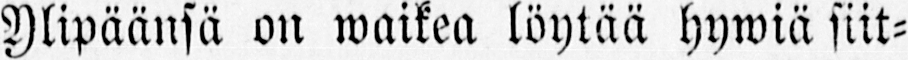Ylipäänsä on waikea löytää hywiä siit-
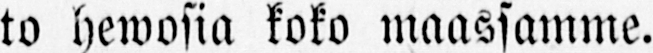to hewosia koko maassamme.
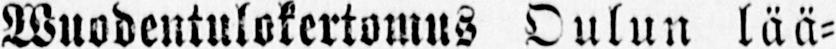Wuodentulokertomus Oulun lää-
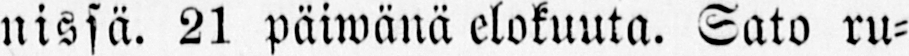nissä. 21 päiwänä elokuuta. Sato ru-
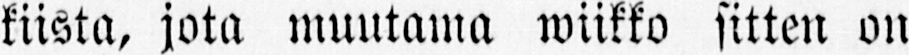kiista, jota muutama wiikko sitten on
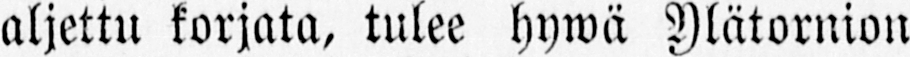aljettu korjata, tulee hywä Ylätornion
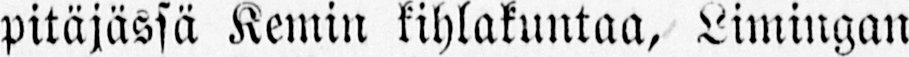pitäjässä Kemin kihlakuntaa, Limingan
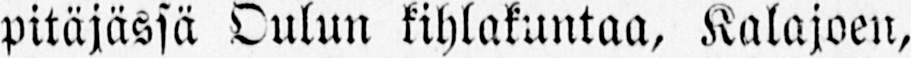pitäjässä Oulun kihlakuntaa, Kalajoen,
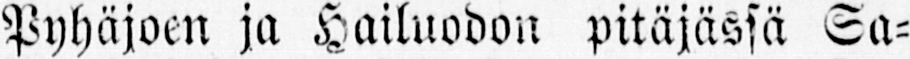Pyhäjoen ja Hailuodon pitäjässä Sa-
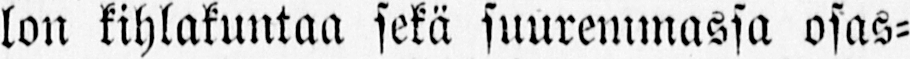lon kihlakuntaa sekä suuremmassa osas-
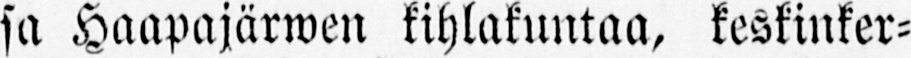sa Haapajärwen kihlakuntaa, keskinker-
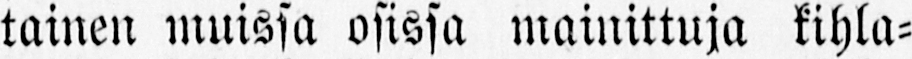tainen muissa osissa mainittuja kihla-
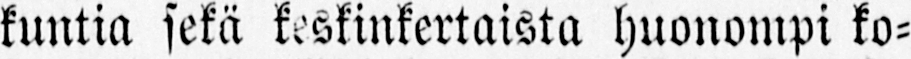kuntia sekä keskinkertaista huonompi ko-
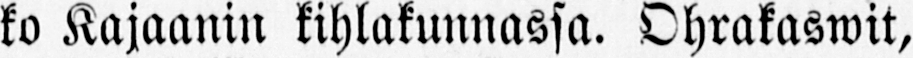ko Kajaanin kihlakunnassa. Ohrakaswit,
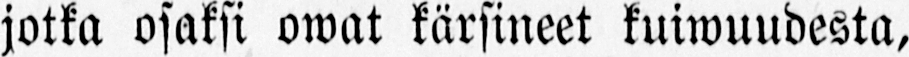jotka osaksi owat kärsineet kuwuudesta,
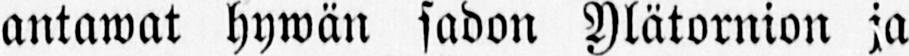antawat hywän sadon Ylätornion ja
